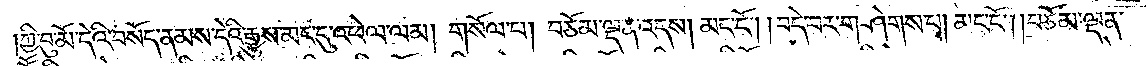ཀྱི་བུ་མོ་དེའི་བསོད་ནམས་དེའི་རྒྱུས་མང་དུ་འཕེལ་ལམ། གསོལ་པ། བཅོམ་ལྡན་འདས། མང་ངོ༌། །བདེ་བར་གཤེགས་པ། མང་ངོ༌། །བཅོམ་ལྡན་
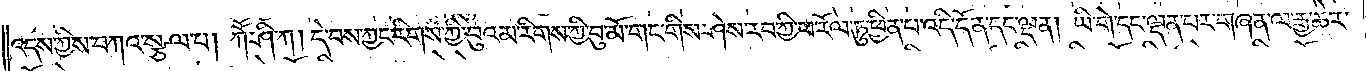འདས་ཀྱིས་བཀའ་སྩལ་པ། ཀཽ་ཤི་ཀ། དེ་བས་ཀྱང་རིགས་ཀྱི་བུའམ་རིགས་ཀྱི་བུ་མོ་གང་གིས་ཤེས་རབ་ཀྱི་ཕ་རོལ་ཏུ་ཕྱིན་པ་འདི་དོན་དང་ལྡན། ཡི་གེ་དང་ལྡན་པར་གཞན་ལ་རྒྱ་ཆེར་
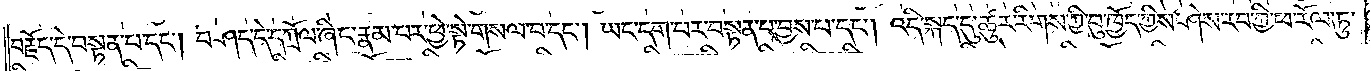བརྗོད་དེ་བསྟན་པ་དང༌། བཤད་དེ་བཀྲོལ་ཞིང་རྣམ་པར་ཕྱེ་སྟེ་གསལ་བ་དང༌། ཡང་དག་པར་བསྟན་པ་བྱས་པ་དང༌། འདི་སྐད་དུ་ཚུར་རིགས་ཀྱི་བུ་ཁྱོད་ཀྱིས་ཤེས་རབ་ཀྱི་ཕ་རོལ་ཏུ་
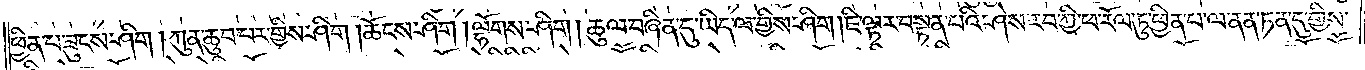ཕྱིན་པ་ཟུངས་ཤིག །ཀུན་ཆུབ་པར་གྱིས་ཤིག །ཆོངས་ཤིག། ལྷོགས་ཤིག། ཚུལ་བཞིན་དུ་ཡིད་ལ་གྱིས་ཤིག །ཇི་ལྟར་བསྟན་པའི་ཤེས་རབ་ཀྱི་ཕ་རོལ་ཏུ་ཕྱིན་པ་ལ་ནན་ཏན་དུ་གྱིས་
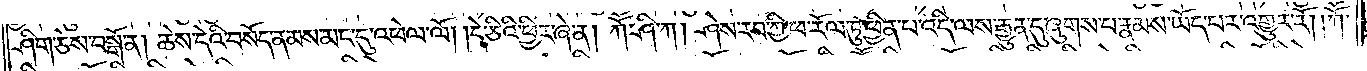ཤིག་ཅེས་བསྒོ་ན། ཆེས་དེའི་བསོད་ནམས་མང་དུ་འཕེལ་ལོ། །དེ་ཅིའི་ཕྱིར་ཞེ་ན། ཀཽ་ཤི་ཀ། ཤེས་རབ་ཀྱི་ཕ་རོལ་ཏུ་ཕྱིན་པ་འདི་ལས་རྒྱུན་དུ་ཞུགས་པ་རྣམས་ཡོད་པར་འགྱུར་རོ། །ཀཽ་
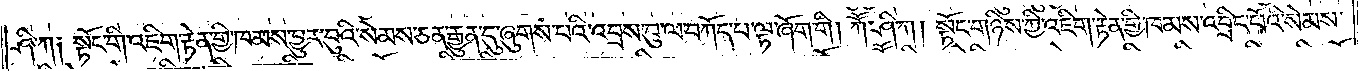ཤི་ཀ༑ སྟོང་གི་འཇིག་རྟེན་གྱི་ཁམས་བྱུར་བུའི་སེམས་ཅན་རྒྱུན་དུ་ཞུགས་པའི་འབྲས་བུ་ལ་བཀོད་པ་ལྟ་ཞོག་གི །ཀཽ་ཤི་ཀ། སྟོང་གཉིས་ཀྱི་འཇིག་རྟེན་གྱི་ཁམས་འབྲིང་པོའི་སེམས་
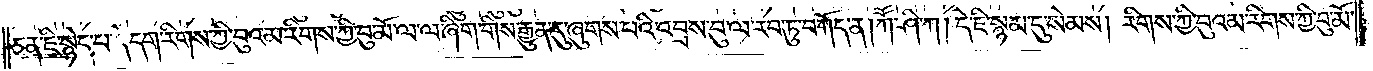ཅན་ཇི་སྙེད་པ་དེ་དག་རིགས་ཀྱི་བུའམ་རིགས་ཀྱི་བུ་མོ་ལ་ལ་ཞིག་གིས་རྒྱུན་དུ་ཞུགས་པའི་འབྲས་བུ་ལ་རབ་ཏུ་བཀོད་ན། ཀཽ་ཤི་ཀ། དེ་ཇི་སྙམ་དུ་སེམས། རིགས་ཀྱི་བུའམ་རིགས་ཀྱི་བུ་མོ་
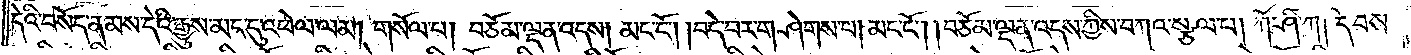དེའི་བསོད་ནམས་དེའི་རྒྱུས་མང་དུ་འཕེལ་ལམ། གསོལ་པ། བཅོམ་ལྡན་འདས། མང་ངོ༌། །བདེ་བར་གཤེགས་པ། མང་ངོ༌། །བཅོམ་ལྡན་འདས་ཀྱིས་བཀའ་སྩལ་པ། ཀཽ་ཤི་ཀ། དེ་བས་
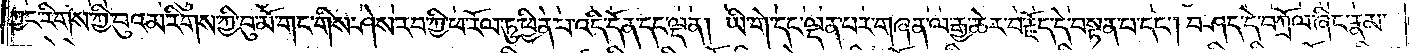ཀྱང་རིགས་ཀྱི་བུའམ་རིགས་ཀྱི་བུ་མོ་གང་གིས་ཤེས་རབ་ཀྱི་ཕ་རོལ་ཏུ་ཕྱིན་པ་འདི་དོན་དང་ལྡན། ཡི་གེ་དང་ལྡན་པར་གཞན་ལ་རྒྱ་ཆེར་བརྗོད་དེ་བསྟན་པ་དང༌། བཤད་དེ་བཀྲོལ་ཞིང་རྣམ་
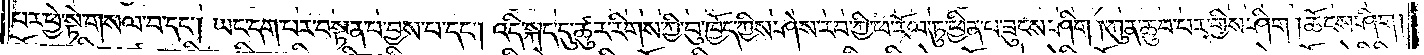པར་ཕྱེ་སྟེ་གསལ་བ་དང༌། ཡང་དག་པར་བསྟན་པ་བྱས་པ་དང༌། འདི་སྐད་དུ་ཚུར་རིགས་ཀྱི་བུ་ཁྱོད་ཀྱིས་ཤེས་རབ་ཀྱི་ཕ་རོལ་ཏུ་ཕྱིན་པ་ཟུངས་ཤིག །ཀུན་ཆུབ་པར་གྱིས་ཤིག །ཆོངས་ཤིག།
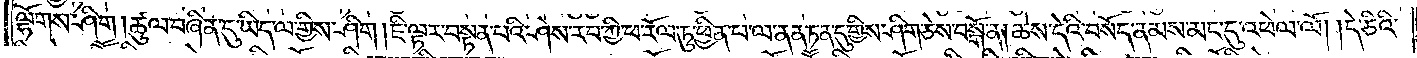ལྷོགས་ཤིག །ཚུལ་བཞིན་དུ་ཡིད་ལ་གྱིས་ཤིག །ཇི་ལྟར་བསྟན་པའི་ཤེས་རབ་ཀྱི་ཕ་རོལ་ཏུ་ཕྱིན་པ་ལ་ནན་ཏན་གྱིས་ཤིག་ཅེས་བསྒོ་ན། ཆེས་དེའི་བསོད་ནམས་མང་དུ་འཕེལ་ལོ། །དེ་ཅིའི་
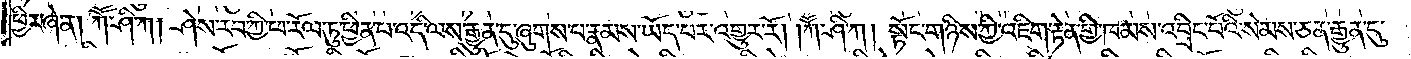ཕྱིར་ཞེ་ན། ཀཽ་ཤི་ཀ། ཤེས་རབ་ཀྱི་ཕ་རོལ་ཏུ་ཕྱིན་པ་འདི་ལས་རྒྱུན་དུ་ཞུགས་པ་རྣམས་ཡོད་པར་འགྱུར་རོ། །ཀཽ་ཤི་ཀ། སྟོང་གཉིས་ཀྱི་འཇིག་རྟེན་གྱི་ཁམས་འབྲིང་པོའི་སེམས་ཅན་རྒྱུན་དུ་
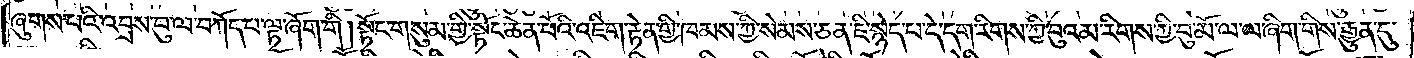ཞུགས་པའི་འབྲས་བུ་ལ་བཀོད་པ་ལྟ་ཞོག་གི །སྟོང་གསུམ་གྱི་སྟོང་ཆེན་པོའི་འཇིག་རྟེན་གྱི་ཁམས་ཀྱི་སེམས་ཅན་ཇི་སྙེད་པ་དེ་དག་རིགས་ཀྱི་བུའམ་རིགས་ཀྱི་བུ་མོ་ལ་ལ་ཞིག་གིས་རྒྱུན་དུ་
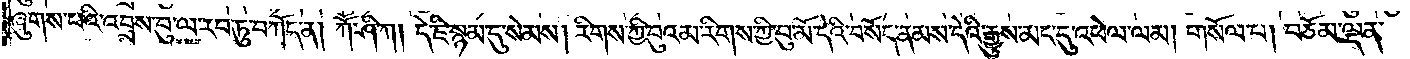ཞུགས་པའི་འབྲས་བུ་ལ་རབ་ཏུ་བཀོད་ན། ཀཽ་ཤི་ཀ། དེ་ཇི་སྙམ་དུ་སེམས། རིགས་ཀྱི་བུའམ་རིགས་ཀྱི་བུ་མོ་དེའི་བསོད་ནམས་དེའི་རྒྱུས་མང་དུ་འཕེལ་ལམ། གསོལ་པ། བཅོམ་ལྡན་
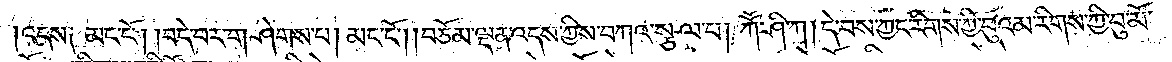འདས༑ མང་ངོ༌། །བདེ་བར་གཤེགས་པ། མང་ངོ༌། །བཅོམ་ལྡན་འདས་ཀྱིས་བཀའ་སྩལ་པ། ཀཽ་ཤི་ཀ། དེ་བས་ཀྱང་རིགས་ཀྱི་བུའམ་རིགས་ཀྱི་བུ་མོ་
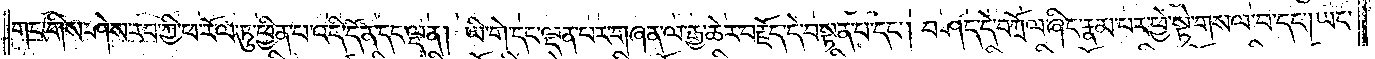གང་གིས་ཤེས་རབ་ཀྱི་ཕ་རོལ་ཏུ་ཕྱིན་པ་འདི་དོན་དང་ལྡན། ཡི་གེ་དང་ལྡན་པར་གཞན་ལ་རྒྱ་ཆེར་བརྗོད་དེ་བསྟན་པ་དང༌། བཤད་དེ་བཀྲོལ་ཞིང་རྣམ་པར་ཕྱེ་སྟེ་གསལ་བ་དང༌། ཡང་
